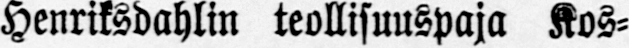Henriksdahlin teollisuuspaja Kos-
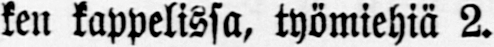ken kappelissa, työmiehiä 2.
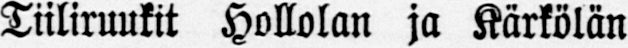Tiiliruukit Hollolan ja Kärkölän
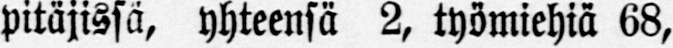pitäjissä, yhteensä 2, työmiehiä 68,
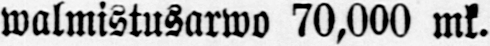walmistusarwo 70,000 mk.
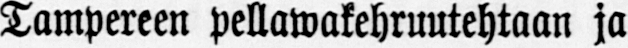Tampereen pellawakehruutehtaan ja
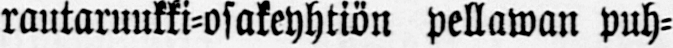rautaruukki-osakeyhtiön pellawan puh-
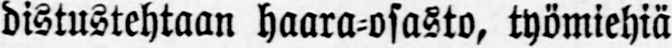distustehtaan haara-osasto, työmiehiä
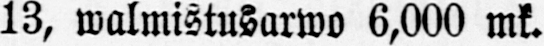13, walmistusarwo 6,000 mk.
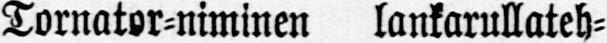Tornator-niminen lankarullateh-
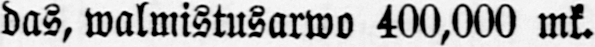das, walmistusarwo 400,000 mk.
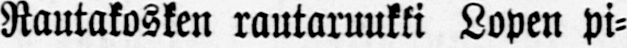Rautakosken rautaruukki Lopen pi-
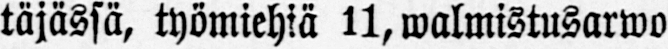täjässä, työmiehiä 11, walmistusarwo
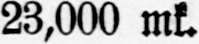23,000 mk.
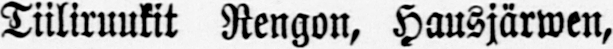Tiiliruukit Rengon, Hausjärwen,
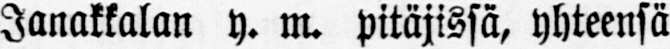Janakkalan y. m. pitäjissä, yhteensä
